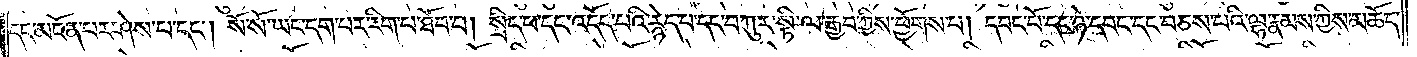དང་མངོན་པར་ཤེས་པ་དང༌། སོ་སོ་ཡང་དག་པར་རིག་པ་ཐོབ་པ། སྲིད་པ་དང་འདོད་པའི་རྙེད་པ་དང་བཀུར་སྟི་ལ་རྒྱབ་ཀྱིས་ཕྱོགས་པ། དབང་པོ་དང་ཉེ་དབང་དང་བཅས་པའི་ལྷ་རྣམས་ཀྱིས་མཆོད་
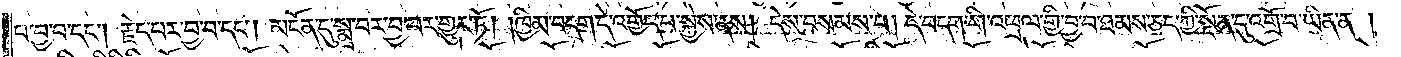པ་བྱ་བ་དང༌། རྗེད་པར་བྱ་བ་དང༌། མངོན་དུ་སྨྲ་བར་བྱ་བར་གྱུར་ཏོ། །ཁྱིམ་བདག་དེ་འགྱོད་པ་སྐྱེས་ནས། དེས་བསམས་པ། དེ་བདག་གི་འཕྲལ་གྱི་བྱ་བ་ཐམས་ཅད་ཀྱི་སྔོན་དུ་འགྲོ་བ་ཡིན་ན།
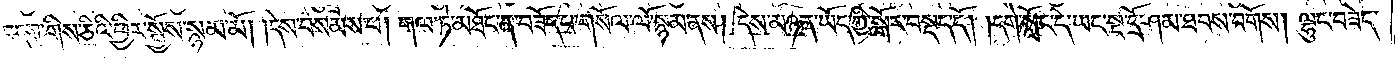བདག་གིས་ཅིའི་ཕྱིར་སྤྱོས་སྙམ་མོ། །དེས་བསམས་པ། གལ་ཏེ་མཐོང་ན་བཟོད་པ་གསོལ་ལོ་སྙམ་ནས། དེས་མཉན་ཡོད་ཀྱི་སྒོར་བསྡད་དོ། །དགེ་སློང་དེ་ཡང་སྔ་དྲོ་ཤམ་ཐབས་བགོས། ལྷུང་བཟེད་
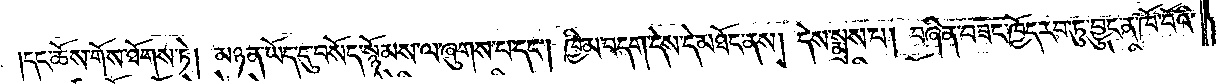དང་ཆོས་གོས་ཐོགས་ཏེ། མཉན་ཡོད་དུ་བསོད་སྙོམས་ལ་ཞུགས་པ་དང༌། ཁྱིམ་བདག་དེས་དེ་མཐོང་ནས། དེས་སྨྲས་པ། བཞིན་བཟང་ཁྱོད་རབ་ཏུ་བྱུང་ན་ཁོ་བོའི་
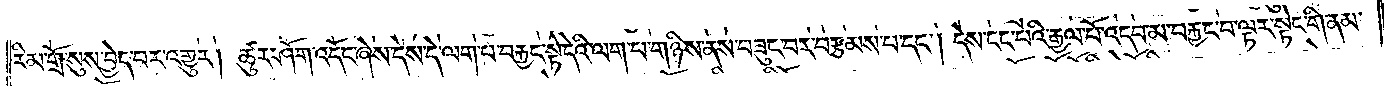རིམ་གྲོ་སུས་བྱེད་པར་འགྱུར། ཚུར་ཤོག་འདོང་ཞེས་དེས་དེ་ལག་པ་བརྐྱང་སྟེ་དེའི་ལག་པ་གཉིས་ནས་བཟུང་བར་བརྩམས་པ་དང༌། དེས་ངང་པའི་རྒྱལ་པོ་འདབ་མ་བརྐྱང་བ་ལྟར་སྟེང་གི་ནམ་
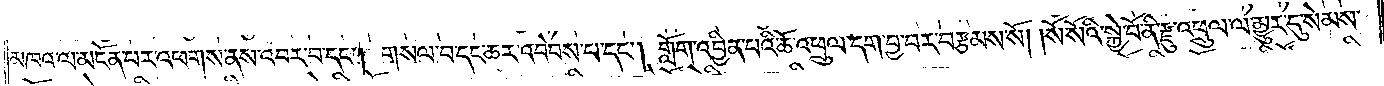མཁའ་ལ་མངོན་པར་འཕགས་ནས་འབར་བ་དང༌། གསལ་བ་དང་ཆར་འབེབས་པ་དང༌། གློག་འབྱིན་པའི་ཆོ་འཕྲུལ་དག་བྱ་བར་བརྩམས་སོ། །སོ་སོའི་སྐྱེ་བོ་ནི་རྫུ་འཕྲུལ་ལ་མྱུར་དུ་སེམས་
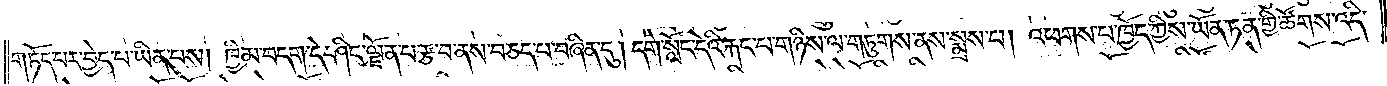གཏོད་པར་བྱེད་པ་ཡིན་པས། ཁྱིམ་བདག་དེ་ཤིང་ལྗོན་པ་རྩ་བ་ནས་བཅད་པ་བཞིན་དུ། དགེ་སློང་དེའི་རྐང་པ་གཉིས་ལ་གཏུགས་ནས་སྨྲས་པ། འཕགས་པ་ཁྱོད་ཀྱིས་ཡོན་ཏན་གྱི་ཚོགས་འདི་
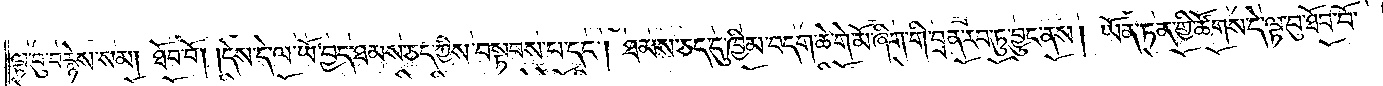ལྟ་བུ་བརྙེས་སམ། ཐོབ་བོ། །དེས་དེ་ལ་ཡོ་བྱད་ཐམས་ཅད་ཀྱིས་བསྟབས་པ་དང༌། ཐམས་ཅད་དུ་ཁྱིམ་བདག་ཆེ་གེ་མོ་ཞིག་གི་བྲན་རབ་ཏུ་བྱུང་ནས། ཡོན་ཏན་གྱི་ཚོགས་དེ་ལྟ་བུ་ཐོབ་བོ་
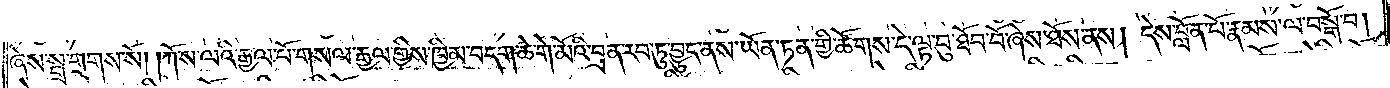ཞེས་སྒྲ་གྲགས་སོ། །ཀོ་ས་ལའི་རྒྱལ་པོ་གསལ་རྒྱལ་གྱིས་ཁྱིམ་བདག་ཆེ་གེ་མོའི་བྲན་རབ་ཏུ་བྱུང་ནས་ཡོན་ཏན་གྱི་ཚོགས་དེ་ལྟ་བུ་ཐོབ་བོ་ཞེས་ཐོས་ནས། དེས་བློན་པོ་རྣམས་ལ་བསྒོ་བ།
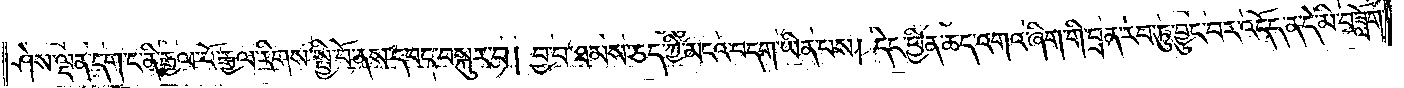ཤེས་ལྡན་དག་ང་ནི་རྒྱལ་པོ་རྒྱལ་རིགས་སྤྱི་བོ་ནས་དབང་བསྐུར་བ། བྱ་བ་ཐམས་ཅད་ཀྱི་མངའ་བདག་ཡིན་པས། དེང་ཕྱིན་ཆད་འགའ་ཞིག་གི་བྲན་རབ་ཏུ་བྱུང་བར་འདོད་ན་དེ་མི་བཟློག་
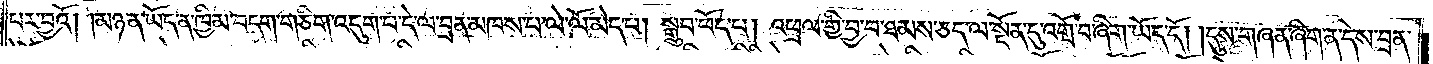པར་བྱའོ། །མཉན་ཡོད་ན་ཁྱིམ་བདག་གཅིག་འདུག་པ་དེ་ལ་བྲན་མཁས་པ་ལེ་ལོ་མེད་པ། སྒྲུབ་ཕོད་པ། འཕྲལ་གྱི་བྱ་བ་ཐམས་ཅད་ལ་སྔོན་དུ་འགྲོ་བ་ཞིག་ཡོད་དོ། །དུས་གཞན་ཞིག་ན་དེས་བྲན་
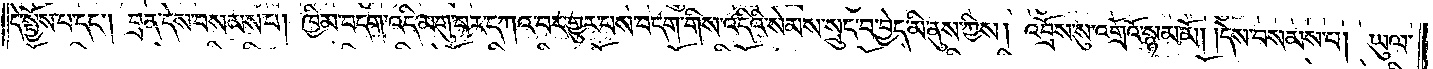དེ་སྤྱོས་པ་དང༌། བྲན་དེས་བསམས་པ། ཁྱིམ་བདག་འདི་མགུ་བར་དཀའ་བར་གྱུར་པས་བདག་གིས་འདིའི་སེམས་སྲུང་བ་བྱེད་མི་ནུས་ཀྱིས། འབྲོས་སུ་འགྲོའོ་སྙམ་མོ། །དེས་བསམས་པ། ཡུལ་
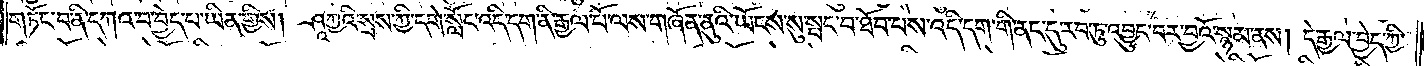གཏོང་བ་ནི་དཀའ་བ་བྱེད་པ་ཡིན་གྱིས། ཤཱཀྱའི་སྲས་ཀྱི་དགེ་སློང་འདི་དག་ནི་རྒྱལ་པོ་ལས་གཞོན་ནུའི་ཡོངས་སུ་སྤང་བ་ཐོབ་པས་འདི་དག་གི་ནང་དུ་རབ་ཏུ་འབྱུང་བར་བྱའོ་སྙམ་ནས། དེ་རྒྱལ་བྱེད་ཀྱི་
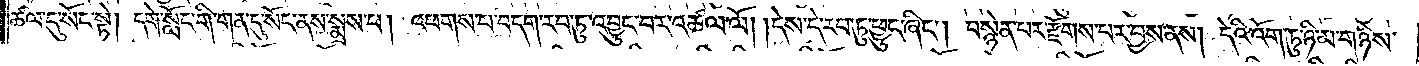ཚལ་དུ་སོང་སྟེ། དགེ་སློང་གི་གན་དུ་སོང་ནས་སྨྲས་པ། འཕགས་པ་བདག་རབ་ཏུ་འབྱུང་བར་འཚལ་ལོ། །དེས་དེ་རབ་ཏུ་ཕྱུང་ཞིང༌། བསྙེན་པར་རྫོགས་པར་བྱས་ནས། དེའི་འོག་ཏུ་ཉི་མ་གཉིས་
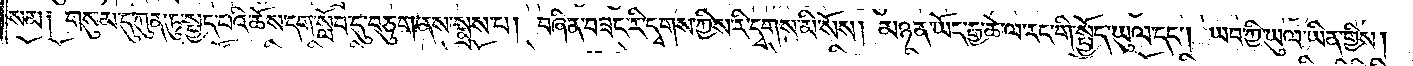སམ༑ གསུམ་དུ་ཀུན་ཏུ་སྤྱད་པའི་ཆོས་དག་སློབ་དུ་བཅུག་ནས་སྨྲས་པ། བཞིན་བཟང་རི་དྭགས་ཀྱིས་རི་དྭགས་མི་སོས། མཉན་ཡོད་རྒྱ་ཆེ་ལ་རང་གི་སྤྱོད་ཡུལ་དང༌། ཡབ་ཀྱི་ཡུལ་ཡིན་གྱིས།
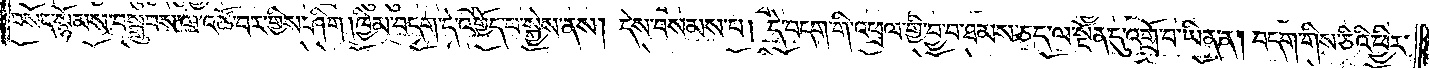བསོད་སྙོམས་བསྒྲུབས་ལ་འཚོ་བར་གྱིས་ཤིག །ཁྱིམ་བདག་དེ་འགྱོད་པ་སྐྱེས་ནས། དེས་བསམས་པ། དེ་བདག་གི་འཕྲལ་གྱི་བྱ་བ་ཐམས་ཅད་ལ་སྔོན་དུ་འགྲོ་བ་ཡིན་ན། བདག་གིས་ཅིའི་ཕྱིར་
